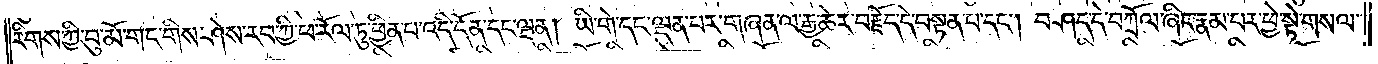རིགས་ཀྱི་བུ་མོ་གང་གིས་ཤེས་རབ་ཀྱི་ཕ་རོལ་ཏུ་ཕྱིན་པ་འདི་དོན་དང་ལྡན། ཡི་གེ་དང་ལྡན་པར་གཞན་ལ་རྒྱ་ཆེར་བརྗོད་དེ་བསྟན་པ་དང༌། བཤད་དེ་བཀྲོལ་ཞིང་རྣམ་པར་བྱེ་སྟེ་གསལ་
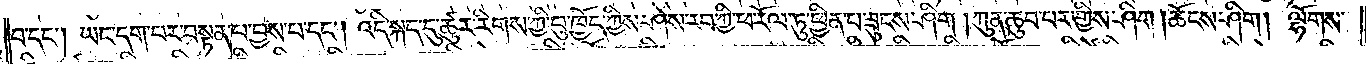བ་དང༌། ཡང་དག་པར་བསྟན་པ་བྱས་པ་དང༌། འདི་སྐད་དུ་ཚུར་རིགས་ཀྱི་བུ་ཁྱོད་ཀྱིས་ཤེས་རབ་ཀྱི་ཕ་རོལ་ཏུ་ཕྱིན་པ་ཟུངས་ཤིག །ཀུན་ཆུབ་པར་གྱིས་ཤིག །ཆོངས་ཤིག། ལྷོགས་
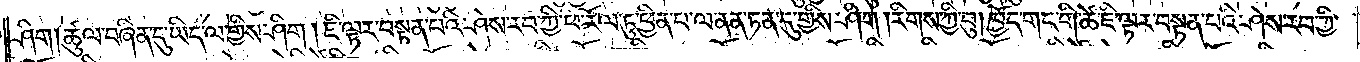ཤིག། ཚུལ་བཞིན་དུ་ཡིད་ལ་གྱིས་ཤིག །ཇི་ལྟར་བསྟན་པའི་ཤེས་རབ་ཀྱི་ཕ་རོལ་ཏུ་ཕྱིན་པ་ལ་ནན་ཏན་དུ་གྱིས་ཤིག །རིགས་ཀྱི་བུ། ཁྱོད་གང་གི་ཚེ་ཇི་ལྟར་བསྟན་པའི་ཤེས་རབ་ཀྱི་
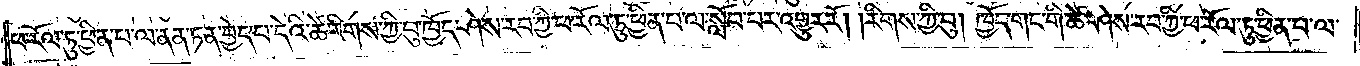ཕ་རོལ་ཏུ་ཕྱིན་པ་ལ་ནན་ཏན་བྱེད་པ་དེའི་ཚེ་རིགས་ཀྱི་བུ་ཁྱོད་ཤེས་རབ་ཀྱི་ཕ་རོལ་ཏུ་ཕྱིན་པ་ལ་སློབ་པར་འགྱུར་རོ། །རིགས་ཀྱི་བུ། ཁྱོད་གང་གི་ཚེ་ཤེས་རབ་ཀྱི་ཕ་རོལ་ཏུ་ཕྱིན་པ་ལ་
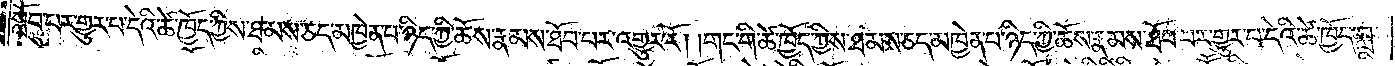སློབ་པར་གྱུར་པ་དེའི་ཚེ་ཁྱོད་ཀྱིས་ཐམས་ཅད་མཁྱེན་པ་ཉིད་ཀྱི་ཆོས་རྣམས་ཐོབ་པར་འགྱུར་རོ། །གང་གི་ཚེ་ཁྱོད་ཀྱིས་ཐམས་ཅད་མཁྱེན་པ་ཉིད་ཀྱི་ཆོས་རྣམས་ཐོབ་པར་གྱུར་པ་དེའི་ཚེ་ཁྱོད་བླ་
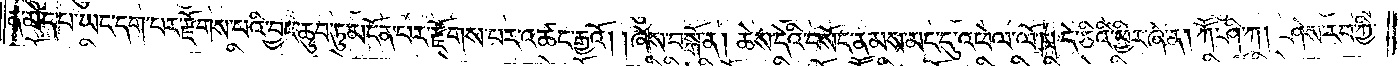ན་མེད་པ་ཡང་དག་པར་རྫོགས་པའི་བྱང་ཆུབ་ཏུ་མངོན་པར་རྫོགས་པར་འཚང་རྒྱའོ། །ཞེས་བསྒོ་ན། ཆེས་དེའི་བསོད་ནམས་མང་དུ་འཕེལ་ལོ། །དེ་ཅིའི་ཕྱིར་ཞེ་ན། ཀཽ་ཤི་ཀ། ཤེས་རབ་ཀྱི་
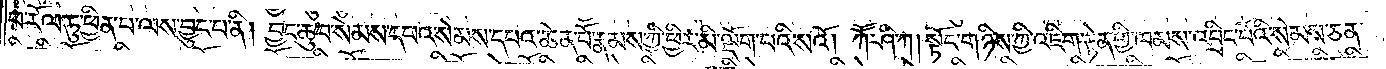ཕ་རོལ་ཏུ་ཕྱིན་པ་ལས་བྱུང་བ་ནི། བྱང་ཆུབ་སེམས་དཔའ་སེམས་དཔའ་ཆེན་པོ་རྣམས་ཀྱི་ཕྱིར་མི་ལྡོག་པའི་སའོ། །ཀཽ་ཤི་ཀ། སྟོང་གཉིས་ཀྱི་འཇིག་རྟེན་གྱི་ཁམས་འབྲིང་བོའི་སེམས་ཅན་
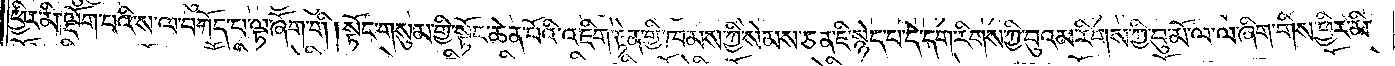ཕྱིར་མི་ལྡོག་པའི་ས་ལ་བཀོད་པ་ལྟ་ཞོག་གི །སྟོང་གསུམ་གྱི་སྟོང་ཆེན་པོའི་འཇིག་རྟེན་གྱི་ཁམས་ཀྱི་སེམས་ཅན་ཇི་སྙེད་བདེ་དག་རིགས་ཀྱི་བུའམ་རིགས་ཀྱི་བུ་མོ་ལ་ལ་ཞིག་གིས་ཕྱིར་མི་
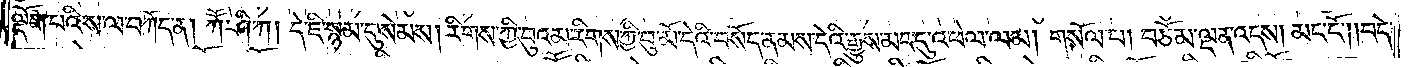ལྡོག་པའི་ས་ལ་བཀོད་ན། ཀཽ་ཤི་ཀ། དེ་ཇི་སྙམ་དུ་སེམས། རིགས་ཀྱི་བུའམ་རིགས་ཀྱི་བུ་མོ་དེའི་བསོད་ནམས་དེའི་རྒྱུས་མང་དུ་འཕེལ་ལམ། གསོལ་པ། བཅོམ་ལྡན་འདས། མང་ངོ༌། །བདེ་
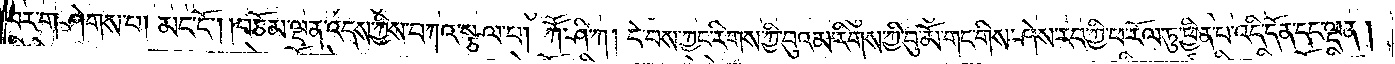བར་གཤེགས་པ། མང་ངོ༌། །བཅོམ་ལྡན་འདས་ཀྱིས་བཀའ་སྩལ་པ། ཀཽ་ཤི་ཀ། དེ་བས་ཀྱང་རིགས་ཀྱི་བུ་འམ་རིགས་ཀྱི་བུ་མོ་གང་གིས་ཤེས་རབ་ཀྱི་ཕ་རོལ་ཏུ་ཕྱིན་པ་འདི་དོན་དང་ལྡན།
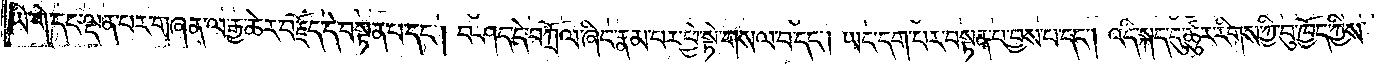ཡི་གེ་དང་ལྡན་པར་གཞན་ལ་རྒྱ་ཆེར་བརྗོད་དེ་བསྟན་པ་དང༌། བཤད་དེ་བཀྲོལ་ཞིང་རྣམ་པར་ཕྱེ་སྟེ་གསལ་བ་དང༌། ཡང་དག་པར་བསྟན་པ་བྱས་པ་དང༌། འདི་སྐད་དུ་ཚུར་རིགས་ཀྱི་བུ་ཁྱོད་ཀྱིས་
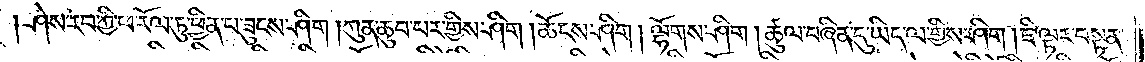ཤེས་རབ་ཀྱི་ཕ་རོལ་ཏུ་ཕྱིན་པ་ཟུངས་ཤིག །ཀུན་ཆུབ་པར་གྱིས་ཤིག །ཆོངས་ཤིག། ལྷོགས་ཤིག །ཚུལ་བཞིན་དུ་ཡིད་ལ་གྱིས་ཤིག །ཇི་ལྟར་བསྟན་
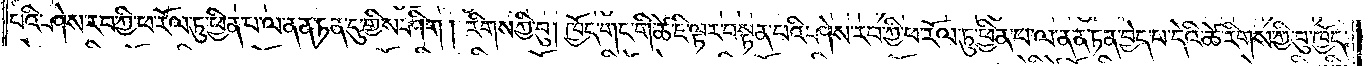པའི་ཤེས་རབ་ཀྱི་ཕ་རོལ་ཏུ་ཕྱིན་པ་ལ་ནན་ཏན་དུ་གྱིས་ཤིག །རིགས་ཀྱི་བུ། ཁྱོད་གང་གི་ཚེ་ཇི་ལྟར་བསྟན་པའི་ཤེས་རབ་ཀྱི་ཕ་རོལ་ཏུ་ཕྱིན་པ་ལ་ནན་ཏན་བྱེད་པ་དེའི་ཚེ་རིགས་ཀྱི་བུ་ཁྱོད་
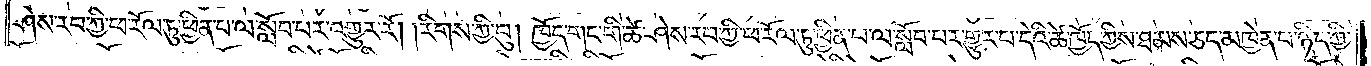ཤེས་རབ་ཀྱི་ཕ་རོལ་ཏུ་ཕྱིན་པ་ལ་སློབ་པར་འགྱུར་རོ། །རིགས་ཀྱི་བུ། ཁྱོད་གང་གི་ཚེ་ཤེས་རབ་ཀྱི་ཕ་རོལ་ཏུ་ཕྱིན་པ་ལ་སློབ་བར་གྱུར་པ་དེའི་ཚེ་ཁྱོད་ཀྱིས་ཐམས་ཅད་མཁྱེན་པ་ཉིད་ཀྱི་
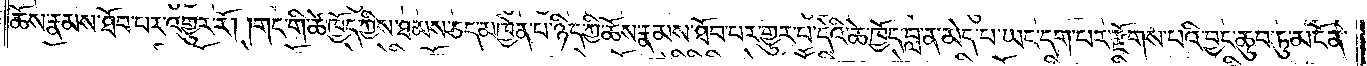ཆོས་རྣམས་ཐོབ་པར་འགྱུར་རོ། །གང་གི་ཚེ་ཁྱོད་ཀྱིས་ཐམས་ཅད་མཁྱེན་པ་ཉིད་ཀྱི་ཆོས་རྣམས་ཐོབ་པར་གྱུར་པ་དེའི་ཚེ་ཁྱོད་བླ་ན་མེད་པ་ཡང་དག་པར་རྫོགས་པའི་བྱང་ཆུབ་ཏུ་མངོན་
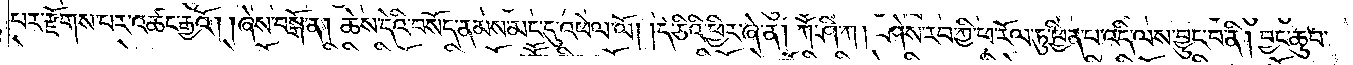པར་རྫོགས་པར་འཚང་རྒྱའོ། །ཞེས་བསྒོ་ན། ཆེས་དེའི་བསོད་ནམས་མང་དུ་འཕེལ་ལོ། །དེ་ཅིའི་ཕྱིར་ཞེ་ན། ཀཽ་ཤི་ཀ། ཤེས་རབ་ཀྱི་ཕ་རོལ་ཏུ་ཕྱིན་པ་འདི་ལས་བྱུང་བ་ནི། བྱང་ཆུབ་
